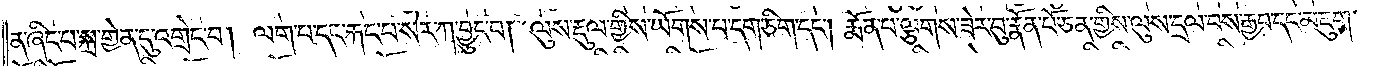ན་ཞིང་པ་སྐྲ་གྱེན་དུ་འགྲེང་བ། ལག་པ་དང་རྐང་པ་སེར་ཀ་བྱུང་བ། ལུས་རྡུལ་གྱིས་ཡོགས་པ་དག་ཅིག་དང༌། རྨོན་པ་ལྕགས་ཟེར་བུ་རྣོན་པོ་ཅན་གྱིས་ལུས་དྲལ་བས་རྒྱབ་དང་མཇུག་
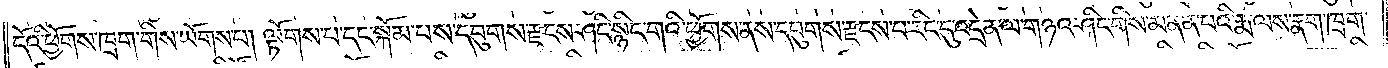ངོའི་ཕྱོགས་ཁྲག་གིས་ཡོགས་པ། ལྟོགས་པ་དང་སྐོམ་པས་དབུགས་རྫངས་ཤིང་སྙིང་གའི་ཕྱོགས་ནས་དབུགས་རྫངས་པ་རིང་དུ་འདྲེན་ལ་གཉའ་ཤིང་གིས་མནན་པའི་རྨ་ལས་རྣག་ཁྲག་
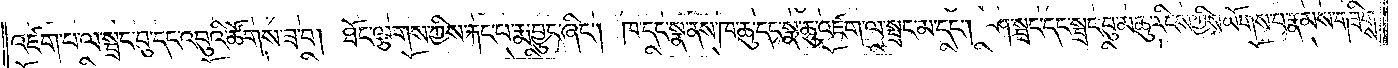འཛག་པ་ལ་སྦྲང་བུ་དང་འབུའི་ཚོགས་ཟ་བ། ཐོང་ལྕགས་ཀྱིས་རྐང་པ་རྨ་བྱུང་ཞིང༌། ཁ་དང་སྣ་ནས་ཁ་ཆུ་དང་སྣ་ཆུ་འཛག་ལ་སྤྲང་མ་དང༌། ཤ་སྦྲང་དང་སྦྲང་བུ་མཆུ་རིངས་ཀྱིས་ཡོགས་པ་རྣམས་གཟིགས་
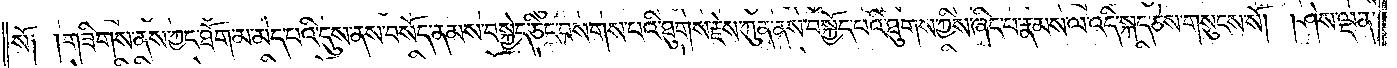སོ། །གཟིགས་ནས་ཀྱང་ཐོག་མ་མེད་པའི་དུས་ནས་བསོད་ནམས་བསྐྱེད་ཅིང་བསགས་པའི་ཐུགས་རྗེས་ཀུན་ནས་བསྐྱོད་པའི་ཐུགས་ཀྱིས་ཞིང་པ་རྣམས་ལ་འདི་སྐད་ཅེས་གསུངས་སོ། །ཤས་ལྡན་
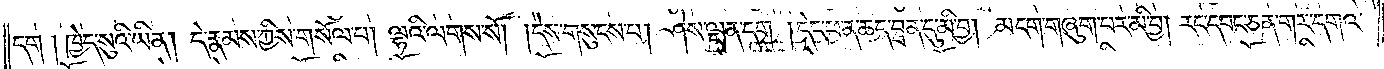དག །ཁྱེད་སུའི་ཡིན། དེ་རྣམས་ཀྱིས་གསོལ་པ། ལྷའི་ལགས་སོ། །དེས་གསུངས་པ། ཤེས་ལྡན་དག །དེང་ཕན་ཆད་བྲན་དུ་མི་བྱ། མངག་གཞུག་པར་མི་བྱ། རང་དབང་ཅན་གར་དགའ་
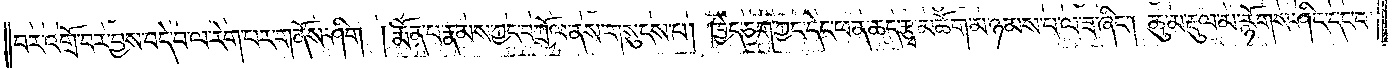བར་འགྲོ་བར་བྱས་བདེ་བ་ལ་རེག་པར་གནོས་ཤིག །རྨོན་པ་རྣམས་ཀྱང་བཀྲོལ་ནས་གསུངས་པ། ཁྱེད་ཅག་ཀྱང་དེང་ཕན་ཆད་རྩྭ་མཆོག་མ་ཉམས་པ་ལ་ཟ་ཞིང༌། ཆུ་མ་རྡུལ་མ་རྙོགས་ཤིང་དང་བ་
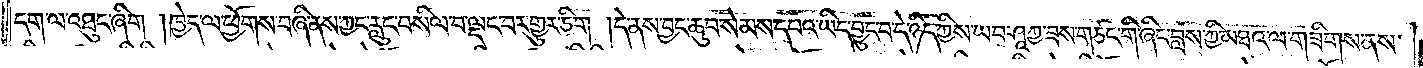དག་ལ་འཐུང་ཞིག །ཁྱེད་ལ་ཕྱོགས་བཞི་ནས་ཀྱང་རླུང་བསིལ་བ་ལྡང་བར་གྱུར་ཅིག །དེ་ནས་བྱང་ཆུབ་སེམས་དཔའ་ཡིད་བྱུང་བ་དེ་ཉིད་ཀྱིས་ཡབ་ཤཱཀྱ་ཟས་གཙང་གི་ཞིང་བླས་ཀྱི་མཐའ་ལ་གཟིགས་ནས་
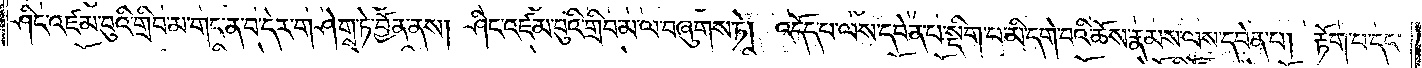ཤིང་འཛམ་བུའི་གྲིབ་མ་གང་ན་བ་དེར་གཤེགས་ཏེ་བྱོན་ནས། ཤིང་འཛམ་བུའི་གྲིབ་མ་ལ་བཞུགས་ཏེ། འདོད་པ་ལས་དབེན་པ་སྡིག་པ་མི་དགེ་བའི་ཆོས་རྣམས་ལས་དབེན་པ། རྟོག་པ་དང་
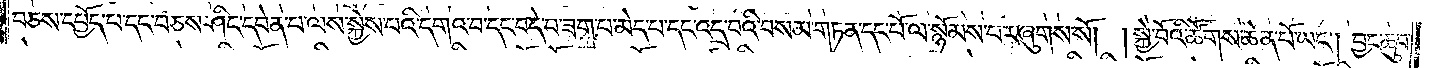བཅས་དཔྱོད་པ་དང་བཅས་ཤིང་དབེན་པ་ལས་སྐྱེས་པའི་དགའ་བ་དང་བདེ་བ་ཟག་པ་མེད་པ་དང་འདྲ་བའི་བསམ་གཏན་དང་པོ་ལ་སྙོམས་པར་ཞུགས་སོ། །སྐྱེ་བོའི་ཚོགས་ཆེན་པོ་ཡང༌། བྱང་ཆུབ་
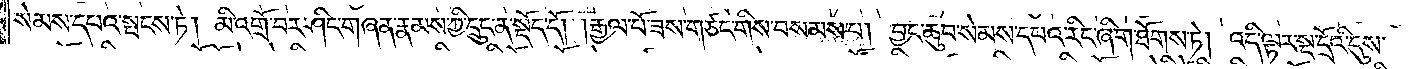སེམས་དཔའ་སྤངས་ཏེ། མི་འགྲོ་བར་ཤིང་གཞན་རྣམས་ཀྱི་དྲུང་ན་སྡོད་དོ། །རྒྱལ་པོ་ཟས་གཙང་གིས་བསམས་པ། བྱང་ཆུབ་སེམས་དཔའ་རིང་ཞིག་ཐོགས་ཏེ། འདི་ལྟར་སྔ་དྲོའི་དུས་
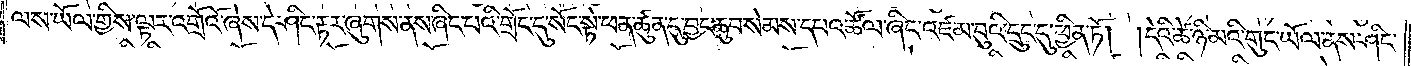ལས་ཡོལ་གྱིས་ལྟར་འགྲོའོ་ཞེས་དེ་ཤིང་རྟར་ཞུགས་ནས་ཞིང་པའི་གྲོང་དུ་སོང་སྟེ་ཕན་ཚུན་དུ་བྱང་ཆུབ་སེམས་དཔའ་ཚོལ་ཞིང་འཛམ་བུའི་དྲུང་དུ་ཕྱིན་ཏོ། །དེའི་ཚེ་ཉི་མའི་གུང་ཡོལ་ནས་ཤིང་
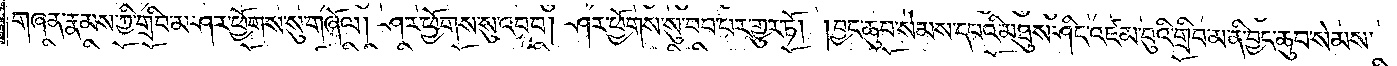གཞན་རྣམས་ཀྱི་གྲིབ་མ་ཤར་ཕྱོགས་སུ་གཞོལ། ཤར་ཕྱོགས་སུ་འབབ། ཤར་ཕྱོགས་སུ་བབ་པར་གྱུར་ཏོ། །བྱང་ཆུབ་སེམས་དཔའི་མཐུས་ཤིང་འཛམ་བུའི་གྲིབ་མ་ནི་བྱང་ཆུབ་སེམས་
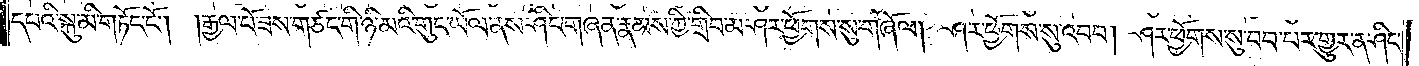དཔའི་སྐུ་མི་གཏོང་ངོ༌། །རྒྱལ་པོ་ཟས་གཙང་གི་ཉི་མའི་གུང་ཡོལ་ནས་ཤིང་གཞན་རྣམས་ཀྱི་གྲིབ་མ་ཤར་ཕྱོགས་སུ་གཞོལ། ཤར་ཕྱོགས་སུ་འབབ། ཤར་ཕྱོགས་སུ་བབ་པར་གྱུར་ན་ཤིང་
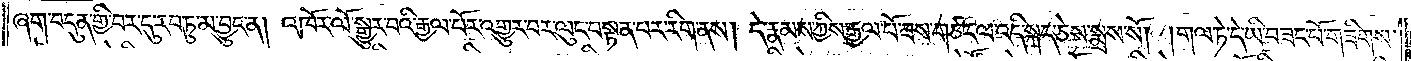ཞག་བདུན་གྱི་བར་དུ་རབ་ཏུ་མ་བྱུང་ན། འཁོར་ལོ་སྒྱུར་བའི་རྒྱལ་པོར་འགྱུར་བར་ལུང་བསྟན་པར་རིག་ནས། དེ་རྣམས་ཀྱིས་རྒྱལ་པོ་ཟས་གཙང་ལ་འདི་སྐད་ཅེས་སྨྲས་སོ། །གལ་ཏེ་དེ་ཡི་བཟང་པོ་གཟིགས་
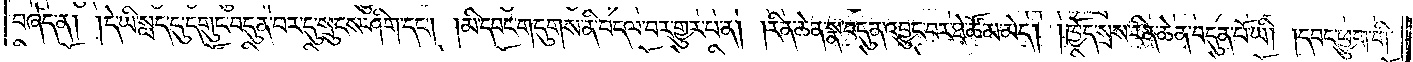བཞེད་ན། །དེ་ཡི་སླད་དུ་དགུང་བདུན་བར་དུ་སྲུངས་ཤིག་དང༌། །མི་དབང་གདུགས་ནི་བདལ་བར་གྱུར་པ་ན། །རིན་ཆེན་སྣ་བདུན་འབྱུང་བར་ཐེ་ཚོམ་མེ། །ཁྱོད་སྲས་རིན་ཆེ་བདུན་པོ་ཡི། །དབང་ཕྱུག་གི་
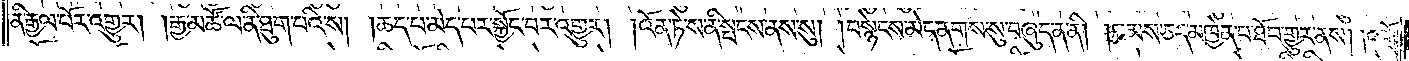ནི་རྒྱལ་པོར་འགྱུར། །རྒྱ་མཚོ་ལ་ནི་ཐུག་པའི་ས། །ཆད་པ་མེད་པར་སྐྱོང་བར་འགྱུར། །འོན་ཏེ་ས་ནི་སྤངས་ནས་སུ། །བསྙེངས་མེད་ནགས་སུ་བཞུད་ན་ནི། །ཐམས་ཅད་མཁྱེན་པ་ཐོབ་གྱུར་ནས། །འགྲོ་
